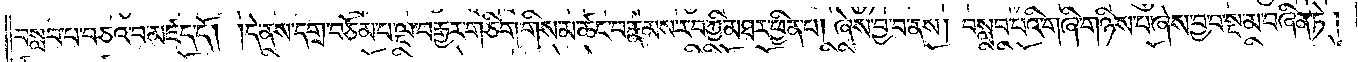བསླབ་པ་བཅའ་བ་མཛད་དོ། །དེ་ནས་དགྲ་བཅོམ་པ་ལྔ་བརྒྱར་གཅིག་གིས་མ་ཚང་བ་རྣམས་རབ་ཀྱི་མཐར་ཕྱིན་པ། ཞེས་བྱ་བ་ནས། བསླབ་པའི་གཞི་གཉིས་པ་ཞེས་བྱ་བ་སྔ་མ་བཞིན་ཏེ།
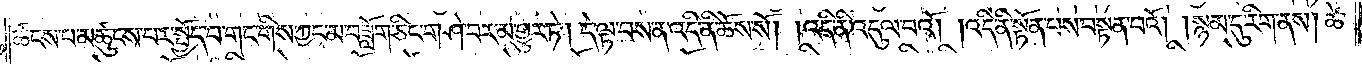ཚངས་པ་མཚུངས་པར་སྤྱོད་པ་གང་གིས་ཀྱང་མ་བཟློག་ཅིང་གཤེ་བར་མ་གྱུར་ཏེ། དེ་ལྟ་བས་ན་འདི་ནི་ཆོས་སོ། །འདི་ནི་འདུལ་བའོ། །འདི་ནི་སྟོན་པས་བསྟན་པའོ། །སྙམ་དུ་རིག་ནས། ཚེ་
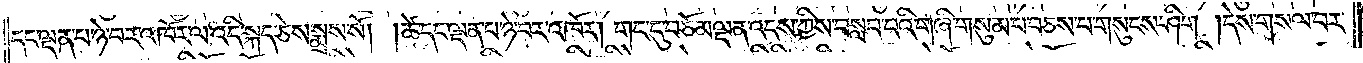དང་ལྡན་པ་ཉེ་བར་འཁོར་ལ་འདི་སྐད་ཅེས་སྨྲས་སོ། །ཚེ་དང་ལྡན་པ་ཉེ་བར་འཁོར། གང་དུ་བཅོམ་ལྡན་འདས་ཀྱིས་བསླབ་པའི་གཞི་གསུམ་པ་བཅས་པ་གསུངས་ཤིག །དེས་གསལ་བར་
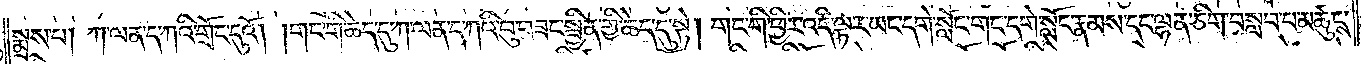སྨྲས་པ། ཀ་ལན་ད་ཀའི་གྲོང་དུའོ། །གང་གི་ཆེད་དུ་ཀ་ལན་ད་ཀའི་བུ་བཟང་སྦྱིན་གྱི་ཆེད་དུ་སྟེ། གང་གི་ཕྱིར་འདི་ལྟར་ཡང་དགེ་སློང་གང་དགེ་སློང་རྣམས་དང་ལྷན་ཅིག་བསླབ་པ་མཚུངས་
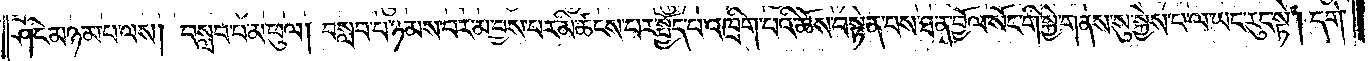ཤིང་མཉམ་པ་ལས། བསླབ་པ་མ་ཕུལ། བསླབ་པ་ཉམས་པར་མ་བྱས་པར་མི་ཚངས་པར་སྤྱོད་པ་འཁྲིག་པའི་ཆོས་བསྟེན་པས་ཐ་ན་བྱོལ་སོང་གི་སྐྱེ་གནས་སུ་སྐྱེས་པ་ལ་ཡང་རུང་སྟེ། དགེ་
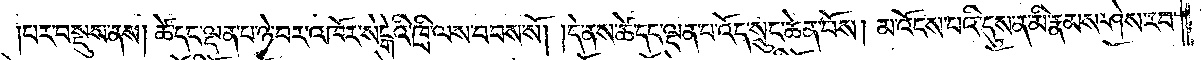།པར་བསྡུས་ནས། ཚེ་དང་ལྡན་པ་ཉེ་བར་འཁོར་སེངྒེའི་ཁྲི་ལས་བབས་སོ། །དེ་ནས་ཚེ་དང་ལྡན་པ་འོད་སྲུང་ཆེན་པོས། མ་འོངས་པའི་དུས་ན་མི་རྣམས་ཤེས་རབ་
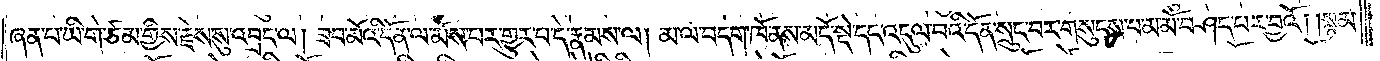ཞན་པ་ཡི་གེ་ཙམ་གྱིས་རྗེས་སུ་འབྲང་ལ། ཟབ་མོའི་དོན་ལ་མོས་པར་གྱུར་པ་དེ་རྣམས་ལ། མ་ལ་བདག་ཁོ་ནས་མདོ་སྡེ་དང་འདུལ་བའི་དོན་སྲུང་བར་གསུངས་པ་མ་མོ་བཤད་པར་བྱའོ། །སྙམ་
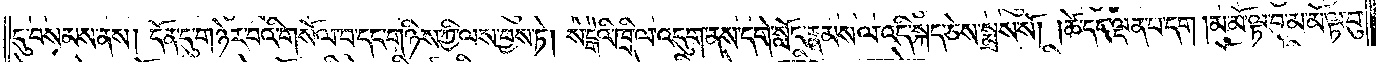དུ་བསམས་ནས། དོན་དུ་གཉེར་བའི་གསོལ་བ་དང་གཉིས་ཀྱི་ལས་བྱས་ཏེ། སེངྒེའི་ཁྲི་ལ་འདུག་ནས་དགེ་སློང་རྣམས་ལ་འདི་སྐད་ཅེས་སྨྲས་སོ། །ཚེ་དང་ལྡན་པ་དག །མ་མོ་ལྟ་བུ་མ་མོ་ལྟ་བུ་
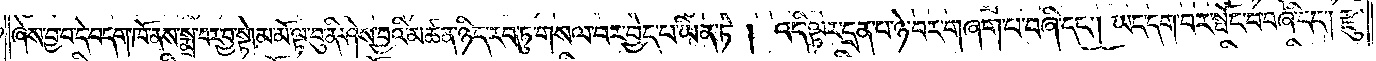ཞེས་བྱ་བ་དེ་བདག་ཁོ་ནས་སྨྲ་བར་བྱ་སྟེ།མ་མོ་ལྟ་བུ་ནི་ཤེས་བྱའི་མཚན་ཉིད་རབ་ཏུ་གསལ་བར་བྱེད་པ་ཡིན་ཏེ། འདི་ལྟར་དྲན་པ་ཉེ་བར་གཞག་པ་བཞི་དང༌། ཡང་དག་པར་སྤོང་བ་བཞི་དང༌། རྫུ་
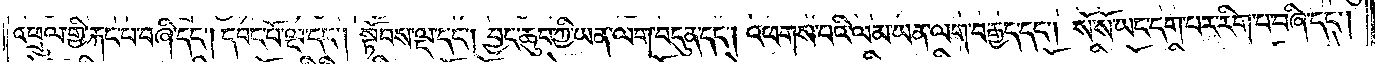འཕྲུལ་གྱི་རྐང་པ་བཞི་དང༌། དབང་པོ་ལྔ་དང༌། སྟོབས་ལྔ་དང༌། བྱང་ཆུབ་ཀྱི་ཡན་ལག་བདུན་དང༌། འཕགས་པའི་ལམ་ཡན་ལག་བརྒྱད་དང༌། སོ་སོ་ཡང་དག་པར་རིག་པ་བཞི་དང༌།
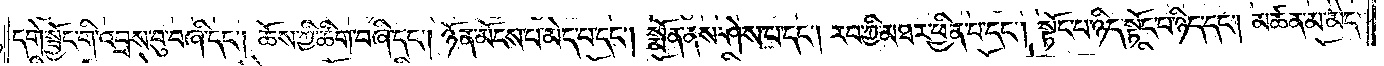དགེ་སྦྱོང་གི་འབྲས་བུ་བཞི་དང༌། ཆོས་ཀྱི་ཚིག་བཞི་དང༌། ཉོན་མོངས་པ་མེད་པ་དང༌། སྨོན་ནས་ཤེས་པ་དང༌། རབ་ཀྱི་མཐར་ཕྱིན་པ་དང༌། སྟོང་པ་ཉིད་སྟོང་པ་ཉིད་དང༌། མཚན་མ་མེད་
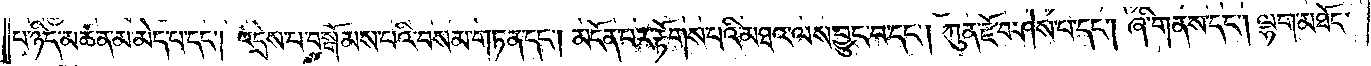པ་ཉིད་མཚན་མ་མེད་པ་དང༌། འདྲེས་པ་བསྒོམས་པའི་བསམ་གཏན་དང༌། མངོན་པར་རྟོགས་པའི་མཐའ་ལས་བྱུང་བ་དང༌། ཀུན་རྫོབ་ཤེས་པ་དང༌། ཞི་གནས་དང༌། ལྷག་མཐོང་
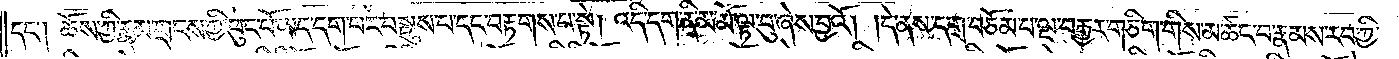དང༌། ཆོས་ཀྱི་རྣམ་གྲངས་ཀྱི་ཕུང་པོ་ཡང་དག་པར་བསྡུས་པ་དང་བརྟགས་པ་སྟེ། འདི་དག་ནི་མ་མོ་ལྟ་བུ་ཞེས་བྱའོ། །དེ་ནས་དགྲ་བཅོམ་པ་ལྔ་བརྒྱར་གཅིག་གིས་མ་ཚང་བ་རྣམས་རབ་ཀྱི་
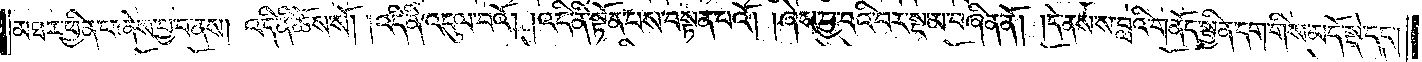མཐར་ཕྱིན་པ་ཞེས་བྱ་བ་ནས། འདི་ནི་ཆོས་སོ། །འདི་ནི་འདུལ་བའོ། །འདི་ནི་སྟོན་པས་བསྟན་པའོ། །ཞེས་བྱ་བའི་བར་སྔ་མ་བཞིན་ནོ། །དེ་ནས་ས་བླའི་གནོད་སྦྱིན་དག་གིས་མདོ་སྡེ་དང༌།
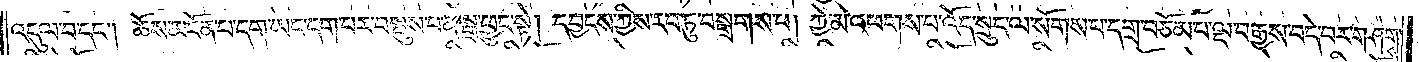འདུལ་བ་དང༌། ཆོས་མངོན་པ་དག་ཡང་དག་པར་བསྡུས་པ་ན་སྒྲ་ཕྱུང་སྟེ། དབྱངས་ཀྱིས་རབ་ཏུ་བསྒྲགས་པ། ཀྱེ་མ་འཕགས་པ་འོད་སྲུང་ལ་སོགས་པ་དགྲ་བཅོམ་པ་ལྔ་བརྒྱས་བདེ་བར་གཤེགས་
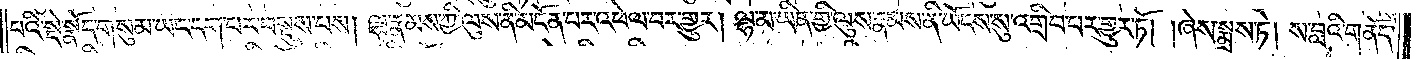པའི་སྡེ་སྣོད་གསུམ་ཡང་དག་པར་བསྡུས་པས། ལྷ་རྣམས་ཀྱི་ལུས་ནི་མངོན་པར་འཕེལ་བར་གྱུར། ལྷ་མ་ཡིན་གྱི་ལུས་རྣམས་ནི་ཡོངས་སུ་འགྲིབ་པར་གྱུར་ཏོ། །ཞེས་སྨྲས་ཏེ། ས་བླའི་གནོད་
